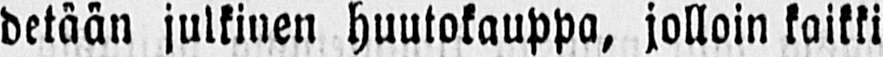detään julkinen huutokauppa, jolloin kaikki
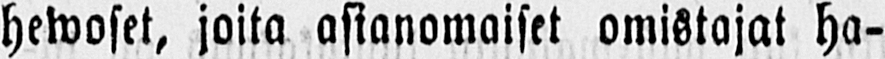hewoset, joita asianomaiset omistajat ha-
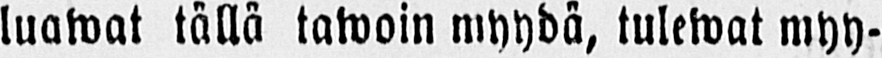luawat tällä tawoin myydä, tulewat myy-
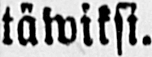täwiksi.
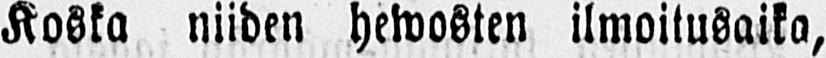Koska niiden hewosten ilmoitusaika,
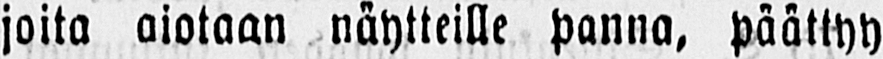joita aiotaan näytteille panna, päättyy
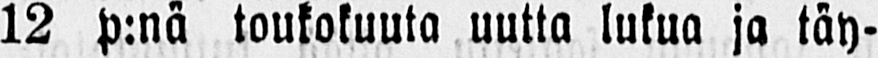12 p:nä toukokuuta uutta lukua ja täy-
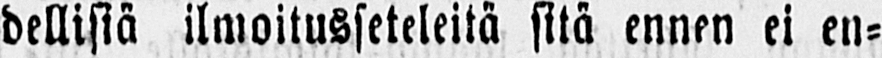dellisiä ilmoitusseteleitä sitä ennen ei en-
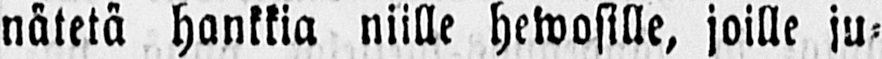nätetä hankkia niille hewosille, joille ju-
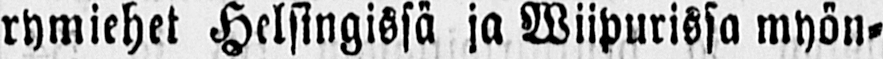rymiehet Helsingissä ja Wiipurissa myön-
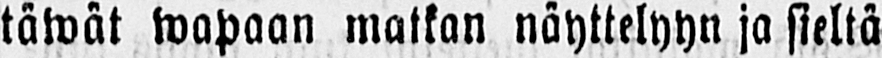täwät wapaan matkan näyttelyyn ja sieltä
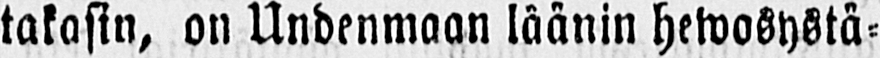takasin, on Uudenmaan läänin hewosystä-
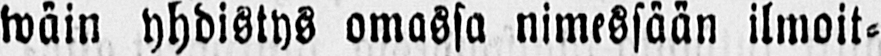wäin yhdistys omassa nimessään ilmoit-
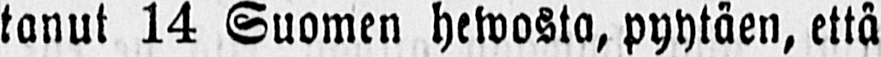tanut 14 Suomen hewosta, pyytäen, että
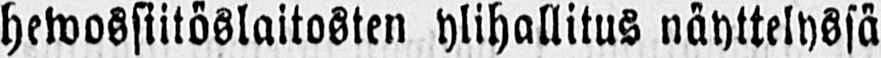hewossiitöslaitosten ylihallitus näyttelyssä
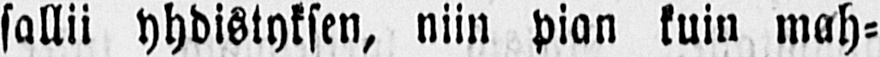sallii Yhdistyksen, niin pian kuin mah-
